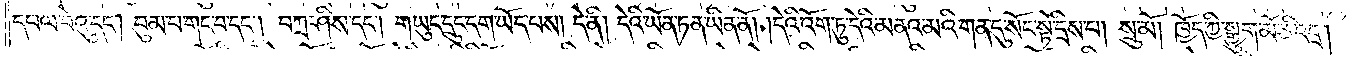དཔལ་བེའུ་དང༌། བུམ་པ་གང་བ་དང༌། བཀྲ་ཤིས་དང༌། གཡུང་དྲུང་དག་ཡོད་པས། དེ་ནི། དེའི་ཡོན་ཏན་ཡིན་ནོ། །དེའི་འོག་ཏུ་དེའི་མནའ་མའི་གན་དུ་སོང་སྟེ་དྲིས་པ། སྲུ་མོ། ཁྱོད་ཀྱི་སྒྱུག་མོ་ཅི་འདྲ།
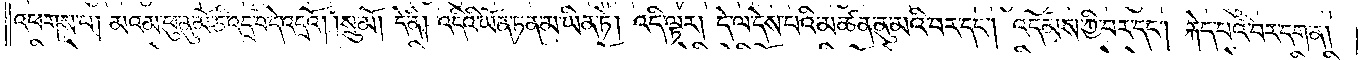འཕགས་པ། མའམ་ཕུ་ནུ་མོ་ཅི་འདྲ་བ་དེ་འདྲའོ། །སྲུ་མོ། དེ་ནི། འདིའི་ཡོན་ཏན་མ་ཡིན་ཏེ། འདི་ལྟར། དེ་ལ་དེས་པའི་མཚན་ནུ་མའི་བར་དང༌། འདོམས་ཀྱི་བར་དང༌། རྐེད་པའི་བར་དག་ན།
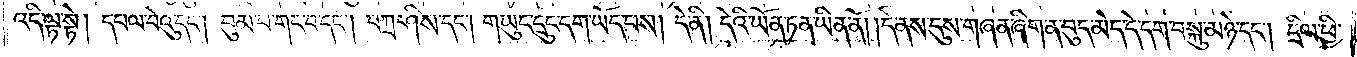འདི་ལྟ་སྟེ། དཔལ་བེའུ་དང༌། བུམ་པ་གང་བ་དང༌། བཀྲ་ཤིས་དང༌། གཡུང་དྲུང་དག་ཡོད་པས། དེ་ནི། དེའི་ཡོན་ཏན་ཡིན་ནོ། །དེ་ནས་དུས་གཞན་ཞིག་ན་བུད་མེད་དེ་དག་བསྐུ་མཉེ་དང༌། དྲིལ་ཕྱི་
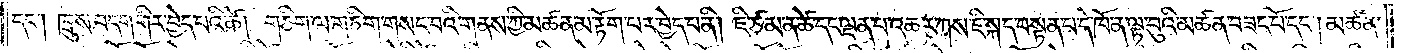དང༌། ཁྲུས་བདག་གིར་བྱེད་པའི་ཚེ། གཅིག་ལ་གཅིག་གསང་བའི་གནས་ཀྱི་མཚན་མ་རྟོག་པར་བྱེད་པ་ནི། ཇི་ཙམ་ན་ཚེ་དང་ལྡན་པ་འཆར་ཀས་ཇི་སྐད་བསྟན་པ་དེ་ཁོ་ན་ལྟ་བུའི་མཚན་བཟང་པོ་དང༌། མཚན་
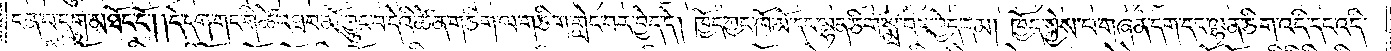ངན་པ་དག་མཐོང་ངོ༌། །དེ་དག་གང་གི་ཚེ་འཐབ་མོ་བྱུང་བ་དེའི་ཚེ་ན་གཅིག་ལ་གཅིག་གླེང་བར་བྱེད་དེ། ཁྱོད་ཀྱང་ཁོ་མོ་དང་ལྷན་ཅིག་སྨྲ་བར་བྱེད་དམ། ཁྱོད་སྐྱེས་པ་གཞན་དག་དང་ལྷན་ཅིག་འདི་དང་འདི་
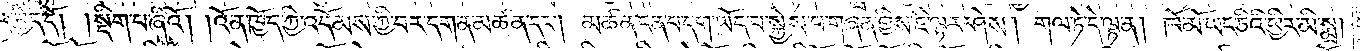ར་བྱེད་དོ། །སྡིག་པ་ཞིའོ། །འོ་ན་ཁྱོད་ཀྱི་འདོམས་ཀྱི་བར་དག་ན་མཚན་དང༌། མཚན་ངན་པ་དག་ཡོད་པ་སྐྱེས་པ་གཞན་གྱིས་ཇི་ལྟར་ཤེས། གལ་ཏེ་དེ་ལྟར་ན། ཁོ་མོ་ཡང་ཅིའི་ཕྱིར་མི་སྨྲ།
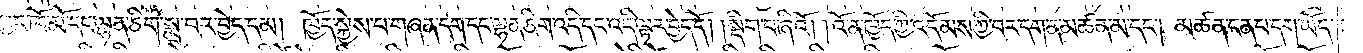ཀྱང་ཁོ་མོ་དང་ལྷན་ཅིག་སྨྲ་བར་བྱེད་དམ། ཁྱོད་སྐྱེས་པ་གཞན་དག་དང་ལྷན་ཅིག་འདི་དང་འདི་ལྟར་བྱེད་དོ། །སྡིག་པ་ཞིའོ། །འོ་ན་ཁྱོད་ཀྱི་འདོམས་ཀྱི་བར་དག་ན་མཚན་མ་དང༌། མཚན་ངན་པ་དག་ཡོད་
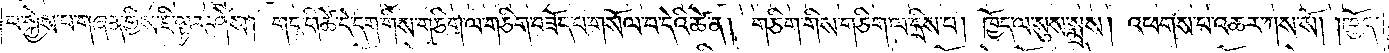པ་སྐྱེས་པ་གཞན་གྱིས་ཇི་ལྟར་ཤེས། གང་གི་ཚེ་དེ་དག་གིས་གཅིག་ལ་གཅིག་བཟོད་པ་གསོལ་བ་དེའི་ཚེ་ན། གཅིག་གིས་གཅིག་ལ་དྲིས་པ། ཁྱོད་ལ་སུས་སྨྲས། འཕགས་པ་འཆར་ཀས་སོ། །ཁྱོད་
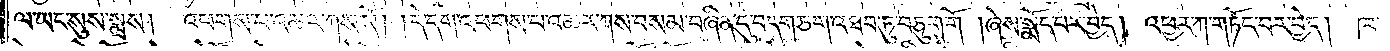ལ་ཡང་སུས་སྨྲས། འཕགས་པ་འཆར་ཀས་སོ། །དེ་དག་འཕགས་པ་འཆར་ཀས་བསམ་བཞིན་དུ་བདག་ཅག་འཐབ་ཏུ་བཅུག་གོ །ཞེས་སྨོད་པར་བྱེད། འཕྱར་ཀ་གཏོང་བར་བྱེད། ཁ་
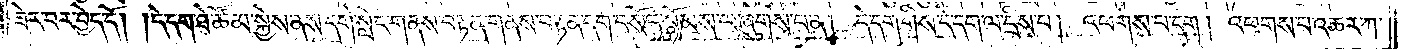ཟེར་བར་བྱེད་དོ། །དེ་དག་ཐེ་ཚོམ་སྐྱེས་ནས་དགེ་སློང་གནས་བརྟན་གནས་བརྟན་དག་བསོད་སྙོམས་ལ་ཞུགས་པ་ན། དེ་དག་གིས་དེ་དག་ལ་དྲིས་པ། འཕགས་པ་དང༌། འཕགས་པ་འཆར་ཀ་
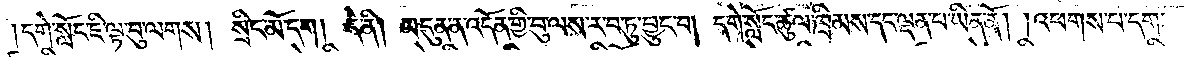དགེ་སློང་ཇི་ལྟ་བུ་ལགས། སྲིང་མོ་དག །དེ་ནི། མདུན་ན་འདོན་གྱི་བུ་ལས་རབ་ཏུ་བྱུང་བ། དགེ་སློང་ཚུལ་ཁྲིམས་དང་ལྡན་པ་ཡིན་ནོ། །འཕགས་པ་དག་
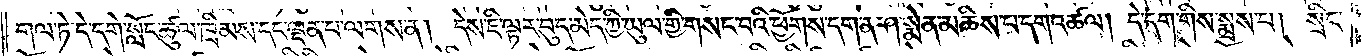གལ་ཏེ་དེ་དགེ་སློང་ཚུལ་ཁྲིམས་དང་ལྡན་པ་ལགས་ན། དེས་ཇི་ལྟར་བུད་མེད་ཀྱི་ཡུལ་གྱི་གསང་བའི་ཕྱོགས་དག་ན་ཤ་སྨེན་མཆིས་པ་དག་འཚལ། དེ་དག་གིས་སྨྲས་པ། སྲིང་
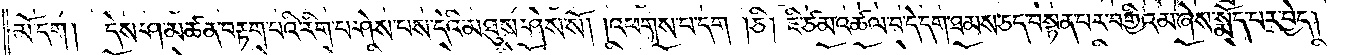མོ་དག། དེས་ཤ་མཚན་བརྟག་པའི་རིག་པ་ཤེས་པས་དེའི་མཐུས་ཤེས་སོ། །འཕགས་པ་དག །ཅི། ཇི་ཙམ་འཚལ་བ་དེ་དག་ཐམས་ཅད་བསྟན་པར་བགྱིའམ་ཞེས་སྨོད་པར་བྱེད།
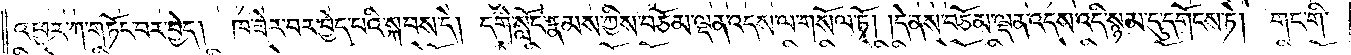འཕྱར་ཀ་གཏོང་བར་བྱེད། ཁ་ཟེར་བར་བྱེད་པའི་སྐབས་དེ། དགེ་སློང་རྣམས་ཀྱིས་བཅོམ་ལྡན་འདས་ལ་གསོལ་ཏོ། །དེ་ནས་བཅོམ་ལྡན་འདས་འདི་སྙམ་དུ་དགོངས་ཏེ། གང་གི་
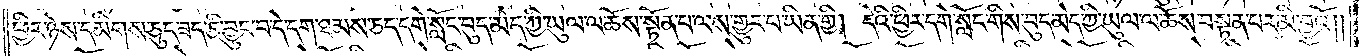ཕྱིར་ཉེས་དམིགས་ཅུང་ཟད་ཅི་བྱུང་བ་དེ་དག་ཐམས་ཅད་དགེ་སློང་བུད་མེད་ཀྱི་ཡུལ་ལ་ཆོས་སྟོན་པ་ལས་གྱུར་པ་ཡིན་གྱི། དེའི་ཕྱིར་དགེ་སློང་གིས་བུད་མེད་ཀྱི་ཡུལ་ལ་ཆོས་བསྟན་པར་མི་བྱའོ༎
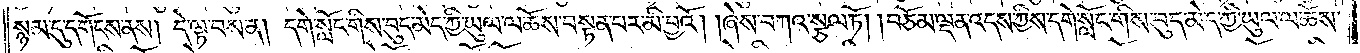སྙམ་དུ་དགོངས་ནས། དེ་ལྟ་བས་ན། དགེ་སློང་གིས་བུད་མེད་ཀྱི་ཡུལ་ལ་ཆོས་བསྟན་པར་མི་བྱའོ། །ཞེས་བཀའ་སྩལ་ཏོ། །བཅོམ་ལྡན་འདས་ཀྱིས་དགེ་སློང་གིས་བུད་མེད་ཀྱི་ཡུལ་ལ་ཆོས་
